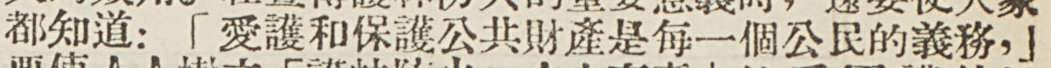都知道：「愛護和保護公共財產是每一個公民的義務，」
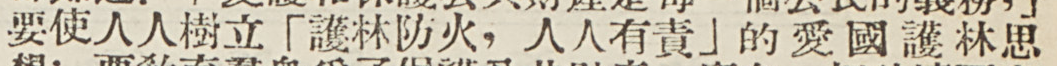要使人人樹立「護林防火，人人有責」的愛國護林思
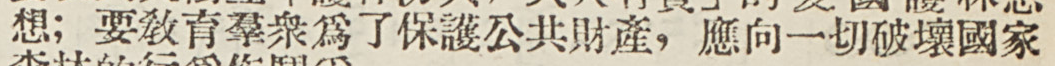想；要敎育羣衆爲了保護公共財產，應向一切破壞國家
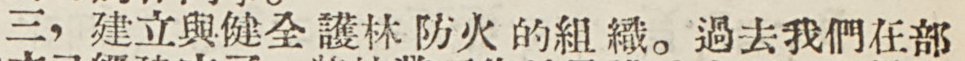三，建立與健全護林防火的組織。過去我們在部
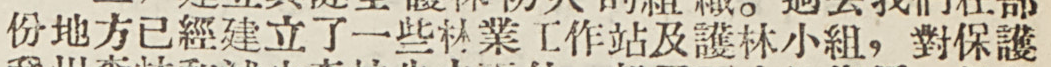份地方已經建立了一些林業工作站及護林小組，對保護
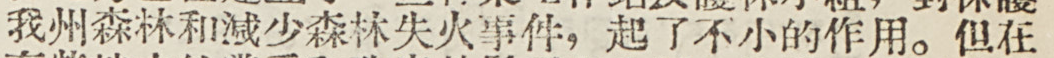我州森林和減少森林失火事件，起了不小的作用。但在
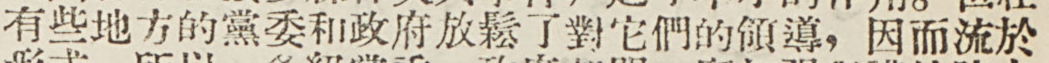有些地方的黨委和政府放鬆了對他們的領導，因而流於
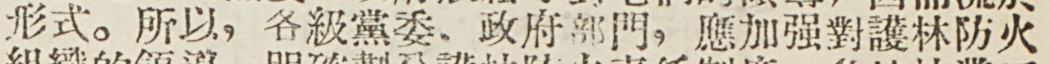形式。所以，各級黨委、政府部門，應加強對護林防火
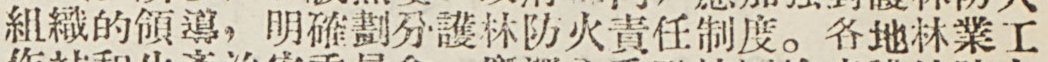組織的領導，明確劃分護林防火責任制度。各地林業工
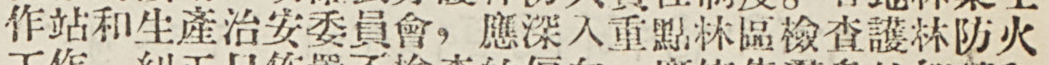作站和生產治安委員會，應深入重點林區檢查護林防火
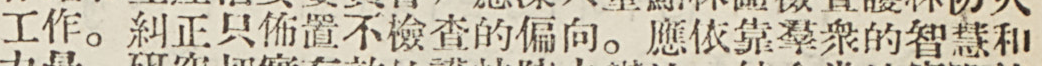工作。糾正只佈置不檢查的偏向。應依靠群眾的智慧和
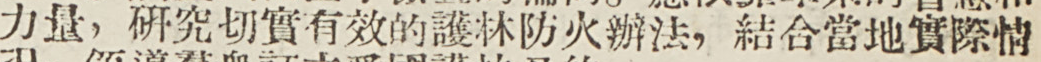力量，研究切實有效的護林防火辦法，結合當地實際情
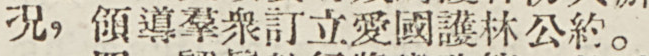況，領導羣衆訂立愛國護林公約。
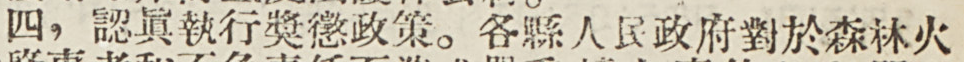四，認眞執行獎懲政策。各縣人民政府對於森林火
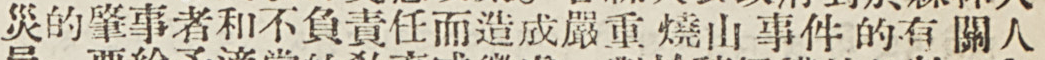災的肇事者和不負責任而造成嚴重燒山事件的有關人
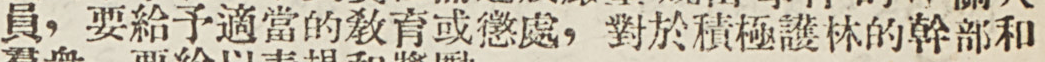員，要給予適當的敎育或懲處，對於積極護林的幹部和
